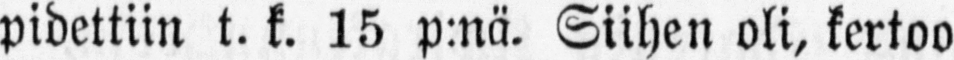pidettiin t. k. 15 p:nä. Siihen oli, kertoo
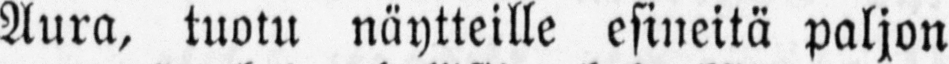Aura, tuotu näytteille esineitä paljon
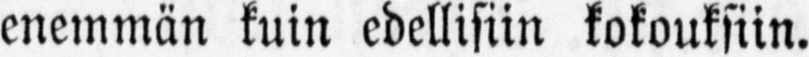enemmän kuin edellisiin kokouksiin.
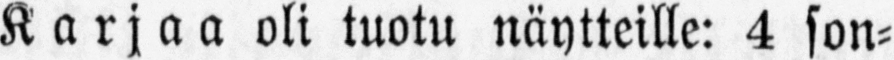Karjaa oli tuotu näytteille: 4 son-
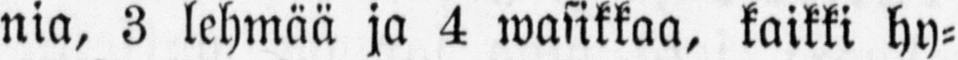nia, 3 lehmää ja 4 wasikkaa, kaikki hy-
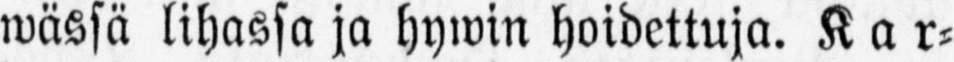wässä lihassa ja hywin hoidettuja. Kar-
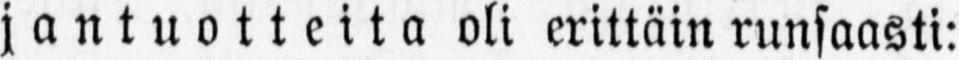jantuotteita oli erittäin runsaasti:
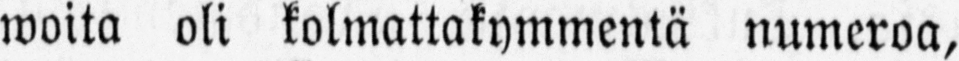woita oli kolmattakymmentä numeroa,
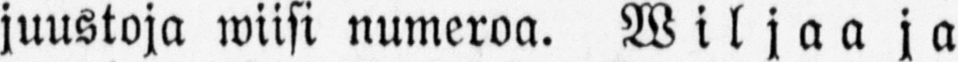juustoja wiisi numeroa. Wiljaa ja
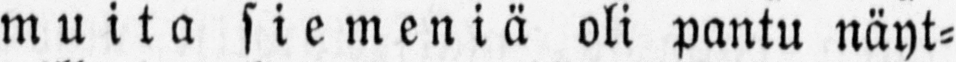muita siemeniä oli pantu näyt-
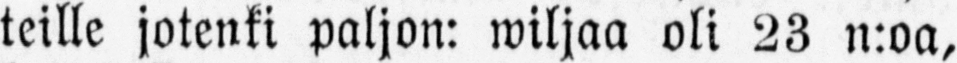teille jotenki paljon: wiljaa oli 23 n:oa,
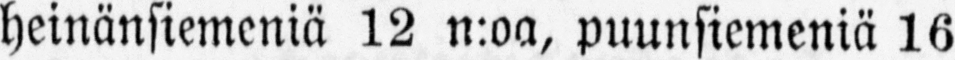heinänsiemeniä 12 n:oa, puunsiemeniä 16
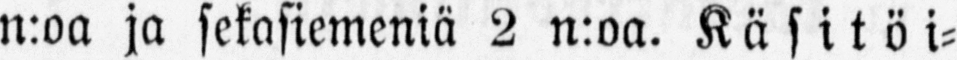n:oa ja sekasiemeniä 2 n:oa. Käsitöi-
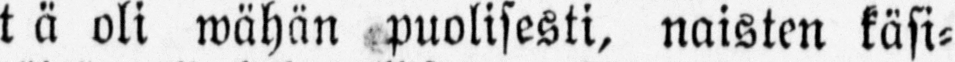tä oli wähän puolisesti, naisten käsi-
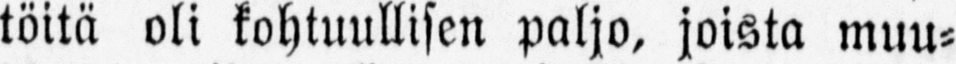töitä oli kohtuullisen paljo, joista muu-
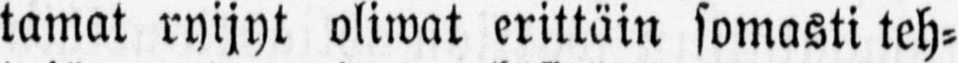tamat ryijyt oliwat erittäin somasti teh-
